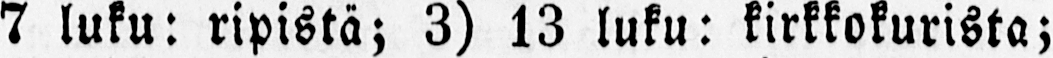7 luku: ripistä; 3) 13 luku: kirkkokurista;
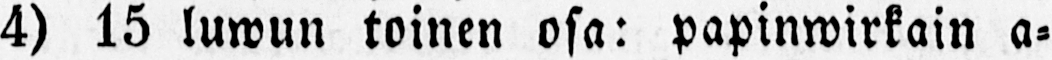4) 15 luwun toinen osa: papinwirkain a-
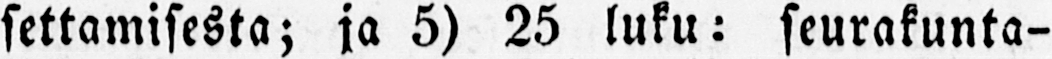settamisesta; ja 5) 25 luku: seurakunta-
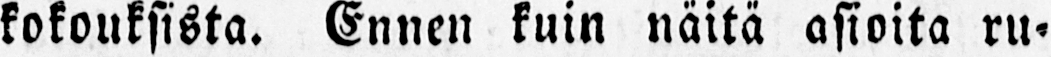kokouksista. Ennen kuin näitä asioita ru-
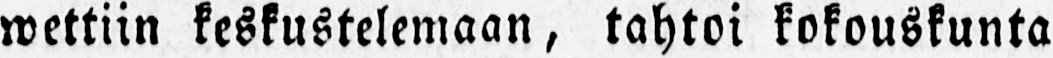wettiin keskustelemaan, tahtoi kokouskunta
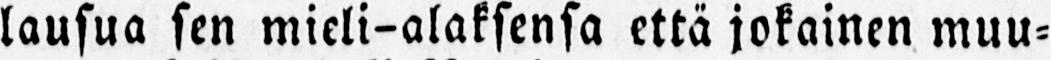lausua sen mieli-alaksensa että jokainen muu-
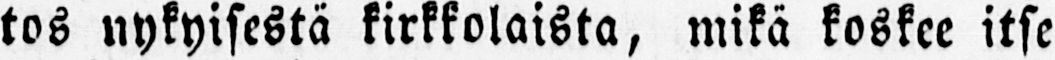tos nykyisestä kirkkolaista, mikä koskee itse
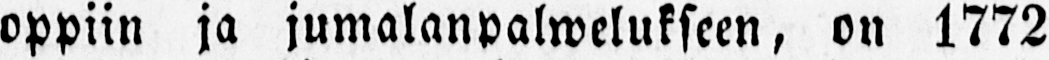oppiin ja jumalanpalwelukseen, on 1772
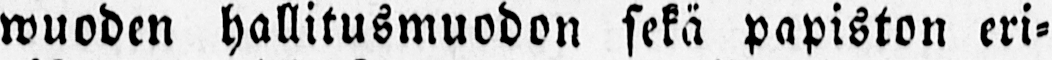wuoden hallitusmuodon sekä papiston eri-
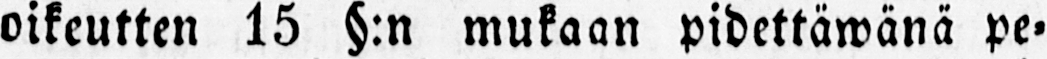oikeutten 15 §:n mukaan pidettäwänä pe-
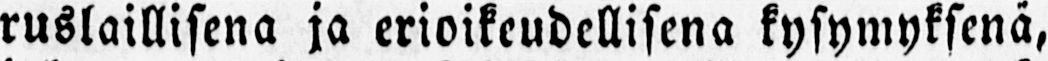ruslaillisena ja erioikeudellisena kysymyksenä,
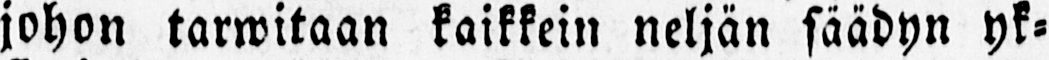johon tarwitaan kaikkein neljän säädyn yk-
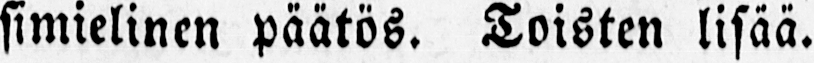simielinen päätös. Toisten lisää.
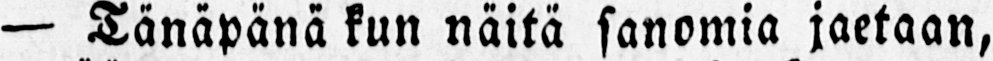— Tänäpänä kun näitä sanomia jaetaan,
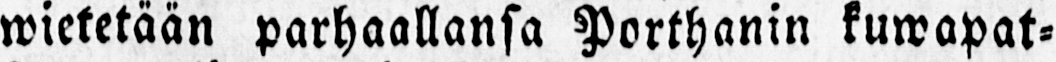wietetään parhaallansa Porthanin kuwapat-
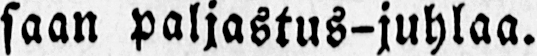saan paljastus-juhlaa.
